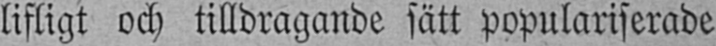lifligt och tilldragande sätt populariserade
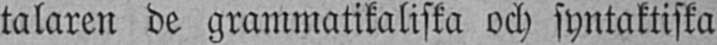talaren de grammatikaliska och syntaktiska
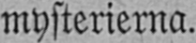mysterierna.
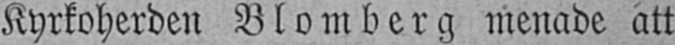Kyrkoherden Blomberg menade att
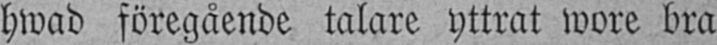hwad föregående talare yttrat wore bra
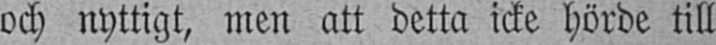och nyttigt, men att detta icke hörde till
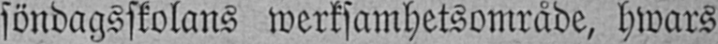söndagsskolans werksamhetsområde, hwars
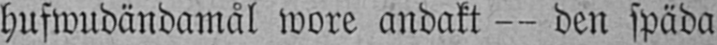hufwudändamål wore andakt — den späda
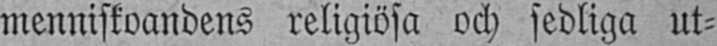menniskoandens religiösa och sedliga ut-
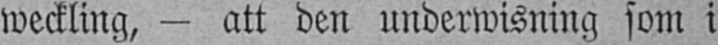weckling, — att den underwisning som i
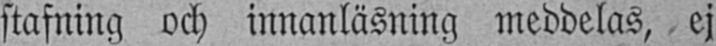stafning och innanläsning meddelas, ej
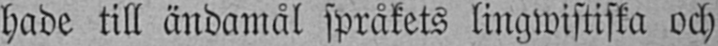hade till ändamål språkets lingwistiska och
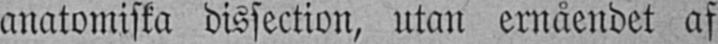anatomiska dissection, utan ernåendet af
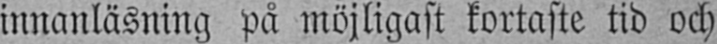innanläsning på möjligast kortaste tid och
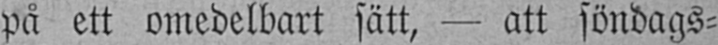på ett omedelbart sätt, — att söndags-
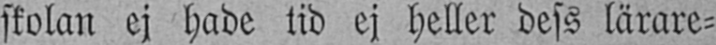skolan ej hade tid ej heller dess lärare-
